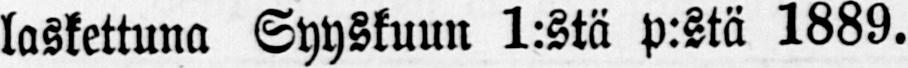laskettuna Syyskuun 1:stä p:stä 1889.
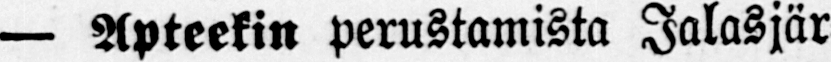— Apteekin perustamista Jalasjär-
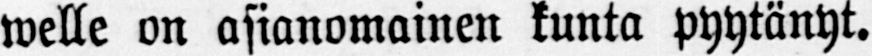welle on asianomainen kunta pyytänyt.
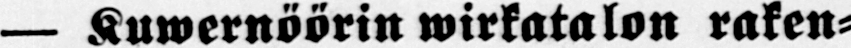— Kuwernöörin wirkatalon raken-
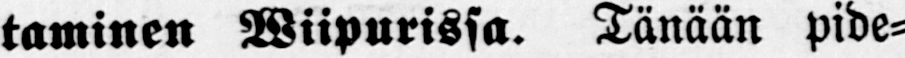taminen Wiipurissa. Tänään pide-
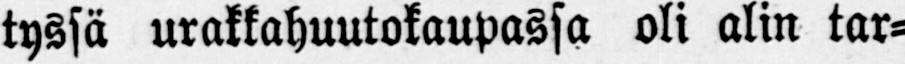tyssä urakkahuutokaupassa oli alin tar-
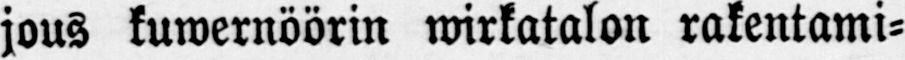jous kuwernöörin wirkatalon rakentami-
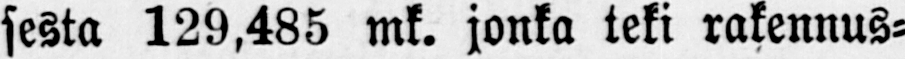sesta 129,485 mk. jonka teki rakennus-
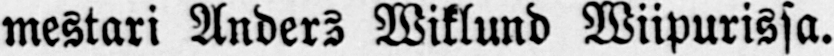mestari Anders Wiklund Wiipurissa.
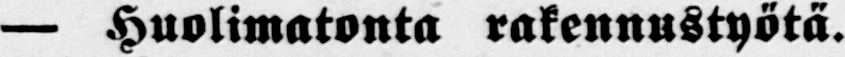— Huolimatonta rakennustyötä.
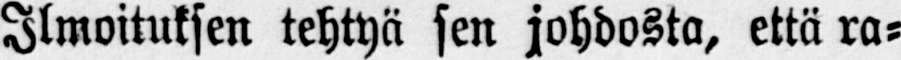Ilmoituksen tehtyä sen johdosta, että ra-
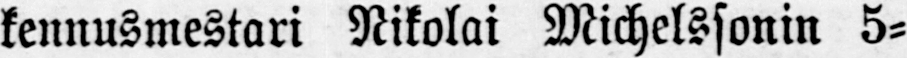kennusmestari Nikolai Michelssonin 5-
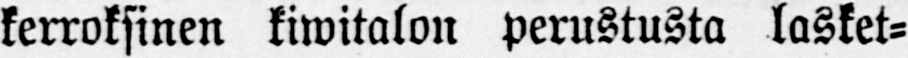kerroksinen kiwitalon perustusta lasket-
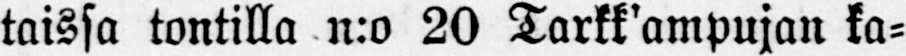taissa tontilla n:o 20 Tarkk'ampujan ka-
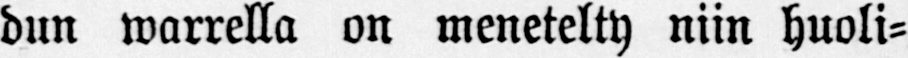dun warrella on menetelty niin huoli-
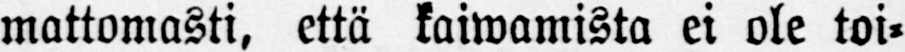mattomasti, että kaiwamista ei ole toi-
